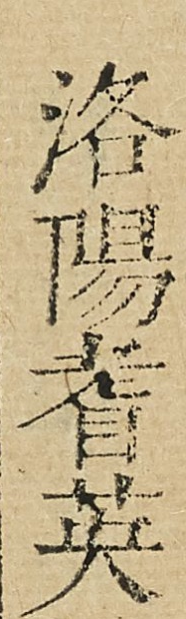洛陽耆英
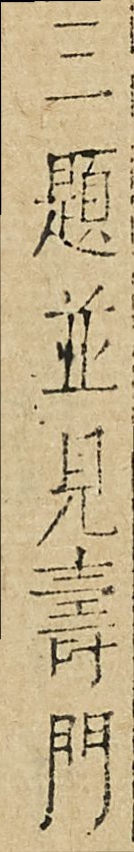三題並見夀門
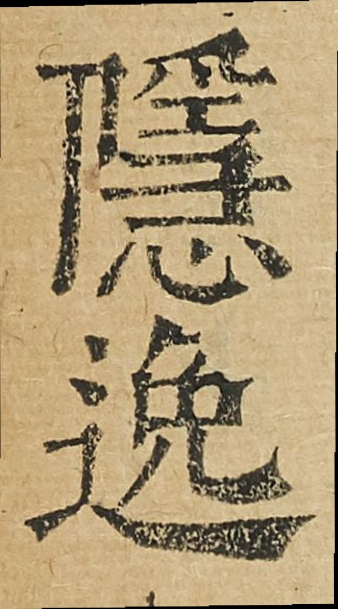隱逸
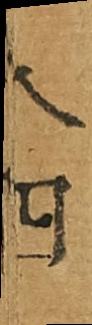八四
